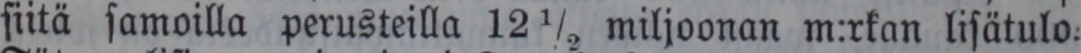siitä samoilla perusteilla 12½ miljoonan m:rkan lisätulo.
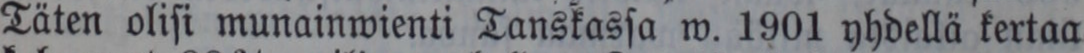Täten olisi munainwienti Tanskassa w. 1901 yhdellä kertaa
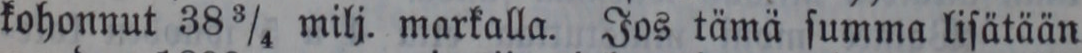kohonnut 38¾ milj. markalla. Jos tämä summa lisätään
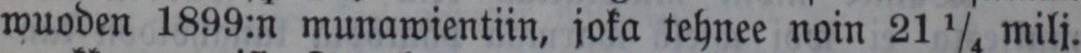wuoden 1899:n munawientiin, joka tehnee noin 21¼ milj.
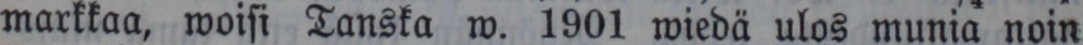markkaa, woisi Tanska w. 1901 wiedä ulos munia noin
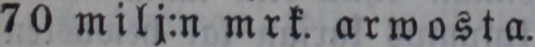70 milj:n mrk. arwosta.
